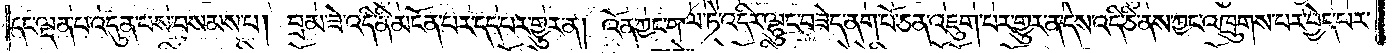དང་ལྡན་པ་འདུན་པས་བསམས་པ། བྲམ་ཟེ་འདི་ནི་མངོན་པར་དད་པར་གྱུར་ན། འོན་ཀྱང་གལ་ཏེ་འདིར་ལྷུང་བཟེད་ནག་པོ་ཅན་འཇུག་པར་གྱུར་ན་དེས་འདི་ཅི་ནས་ཀྱང་འཁྲུགས་པར་བྱེད་པར་
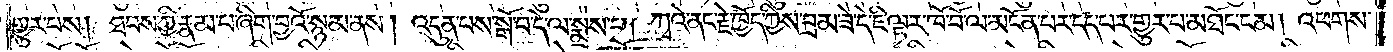གྱུར་པས། ཐབས་ཀྱི་རྣམ་པ་ཞིག་བྱའོ་སྙམ་ནས། འདུན་པས་སྒོ་བ་དེ་ལ་སྨྲས་པ། ཀྭའེ་ནང་རྗེ་ཁྱོད་ཀྱིས་བྲམ་ཟེ་དེ་ཇི་ལྟར་ཁོ་བོ་ལ་མངོན་པར་དད་པར་གྱུར་པ་མཐོང་ངམ། འཕགས་
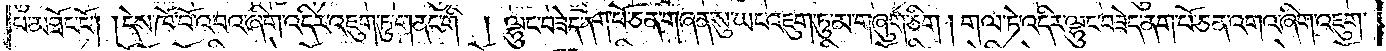པ་མཐོང་ངོ༌། །དེས་ཁོ་བོ་འབའ་ཞིག་འདིར་འཇུག་ཏུ་གནང་གི། ལྷུང་བཟེད་ནག་པོ་ཅན་གཞན་སུ་ཡང་འཇུག་ཏུ་མ་གཞུག་ཅིག །གལ་ཏེ་འདིར་ལྷུང་བཟེད་ནག་པོ་ཅན་འགའ་ཞིག་འཇུག་
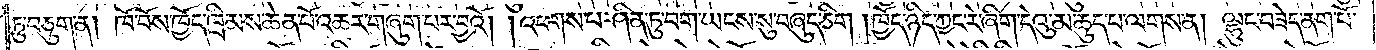ཏུ་བཅུག་ན། ཁོ་བོས་ཁྱོད་ཁྲིམས་ཆེན་པོ་འཆར་གཞུག་པར་བྱའོ། །འཕགས་པ་ཤིན་ཏུ་བག་ཡངས་སུ་བཞུད་ཅིག །ཁྱོད་ཉིད་ཀྱང་རེ་ཞིག་དེའུ་མ་ཆུད་པ་ལགས་ན། ལྷུང་བཟེད་ནག་པོ་
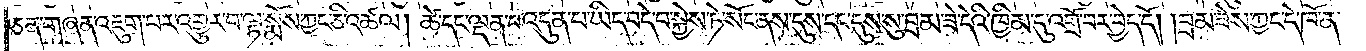ཅན་གཞན་འཇུག་པར་འགྱུར་བ་ལྟ་སྨོས་ཀྱང་ཅི་འཚལ། ཚེ་དང་ལྡན་པ་འདུན་པ་ཡིད་བདེ་བ་སྐྱེས་ཏེ་སོང་ནས་དུས་དང་དུས་སུ་བྲམ་ཟེ་དེའི་ཁྱིམ་དུ་འགྲོ་བར་བྱེད་དོ། །བྲམ་ཟེས་ཀྱང་དེ་ཁོ་ན་
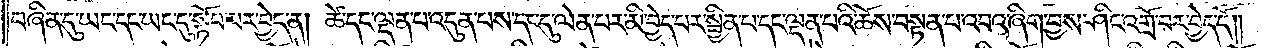བཞིན་དུ་ཡང་དང་ཡང་དུ་སྟོབ་པར་བྱེད་ན། ཚེ་དང་ལྡན་པ་འདུན་པས་དང་དུ་ལེན་པར་མི་བྱེད་པར་སྦྱིན་པ་དང་ལྡན་པའི་ཆོས་བསྟན་པ་འབའ་ཞིག་བྱས་ཤིང་འགྲོ་བར་བྱེད་དོ༎
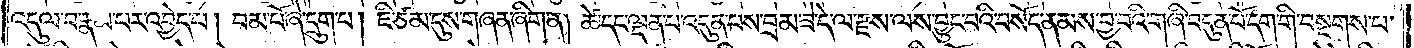འདུལ་བ་རྣམ་པར་འབྱེད་པ། བམ་པོ་ཞེ་དྲུག་པ། ཇི་ཙམ་དུས་གཞན་ཞིག་ན། ཚེ་དང་ལྡན་པ་འདུན་པས་བྲམ་ཟེ་དེ་ལ་རྫས་ལས་བྱུང་བའི་བསོད་ནམས་བྱ་བའི་གཞི་བདུན་པོ་དག་གི་བསྔགས་པ་
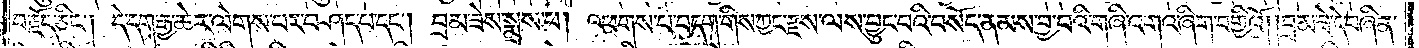བརྗོད་ཅིང༌། དེ་དག་རྒྱ་ཆེར་ལེགས་པར་བཤད་པ་དང༌། བྲམ་ཟེས་སྨྲས་པ། འཕགས་པ་བདག་གིས་ཀྱང་རྫས་ལས་བྱུང་བའི་བསོད་ནམས་བྱ་བའི་གཞི་འགའ་ཞིག་བགྱིའོ། །བྲམ་ཟེ་དེ་བཞིན་
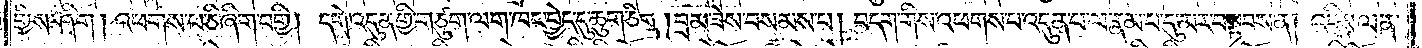གྱིས་ཤིག། འཕགས་པ་ཅི་ཞིག་བགྱི། དགེ་འདུན་གྱི་གཙུག་ལག་ཁང་བྱེད་དུ་ཆུག་ཅིག །བྲམ་ཟེས་བསམས་པ། བདག་གིས་འཕགས་པ་འདུན་པ་ལ་རྣམ་པ་དུ་མར་བསྟབས་ན། འདིས་ལན་
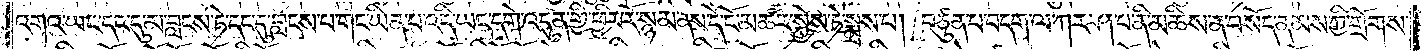འགའ་ཡང་དང་དུ་མ་བླངས་ཏེ་དང་དུ་བླངས་པ་གང་ཡིན་པ་འདི་ཡང་དགེ་འདུན་གྱི་ཕྱིར་རོ་སྙམ་ནས་དེ་ངོ་མཚར་སྐྱེས་ཏེ་སྨྲས་པ། བཙུན་པ་བདག་ལ་ཀར་ཤ་པ་ནི་མཆིས་ན་བསོད་ནམས་ཀྱི་གྲོགས་
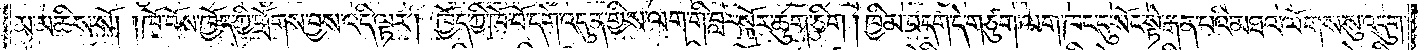མ་མཆིས་སོ། །ཁོ་བོས་ཁྱོད་ཀྱི་གྲོགས་བྱས་འདི་ལྟར། ཁྱོད་ཀྱི་ཁོ་བོ་དགེ་འདུན་གྱིས་ལག་གི་བླར་སྐོར་ཆུག་ཅིག །ཁྱིམ་བདག་དེ་གཙུག་ལག་ཁང་དུ་སོང་སྟེ་རྒན་པའི་མཐའ་ལོགས་སུ་འདུག་
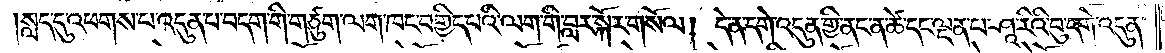སླད་དུ་འཕགས་པ་འདུན་པ་བདག་གི་གཙུག་ལག་ཁང་བགྱིད་པའི་ལག་གི་བླར་སྐོར་གསོལ། དེ་ན་དགེ་འདུན་གྱི་ནང་ན་ཚེ་དང་ལྡན་པ་ཤཱ་རིའི་བུ་དགེ་འདུན་
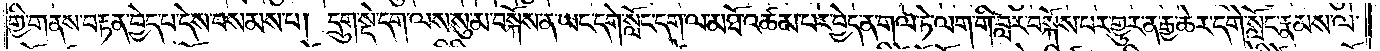གྱི་གནས་བརྟན་བྱེད་པ་དེས་བསམས་པ། དྲུག་སྡེ་དག་ལས་སུ་མ་བསྐོས་ན་ཡང་དགེ་སློང་དག་ལ་མཐོ་འཚམ་པར་བྱེད་ན་གལ་ཏེ་ལག་གི་བླར་བསྐོས་པར་གྱུར་ན་རྒྱ་ཆེར་དགེ་སློང་རྣམས་ལ་
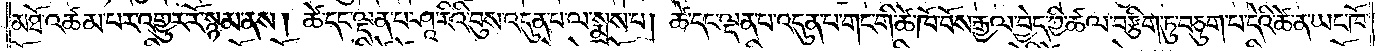མཐོ་འཚམ་པར་འགྱུར་རོ་སྙམ་ནས། ཚེ་དང་ལྡན་པ་ཤཱ་རིའི་བུས་འདུན་པ་ལ་སྨྲས་པ། ཚེ་དང་ལྡན་པ་འདུན་པ་གང་གི་ཚེ་ཁོ་བོས་རྒྱལ་བྱེད་ཀྱི་ཚལ་བརྩིག་ཏུ་བཅུག་པ་དེའི་ཚེ་ན་ཡང་ཁོ་
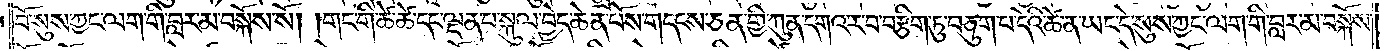བོ་སུས་ཀྱང་ལག་གི་བླར་མ་བསྐོས་སོ། །གང་གི་ཚེ་ཚེ་དང་ལྡན་པ་སྐུལ་བྱེད་ཆེན་པོས་གདངས་ཅན་གྱི་ཀུན་དགའ་ར་བ་བརྩིག་ཏུ་བཅུག་པ་དེའི་ཚེ་ན་ཡང་དེ་སུས་ཀྱང་ལག་གི་བླར་མ་བསྐོས་
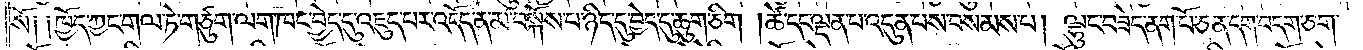སོ༑ ༑ཁྱོད་ཀྱང་གལ་ཏེ་གཙུག་ལག་ཁང་བྱེད་དུ་འཇུད་པར་འདོད་ན་མ་བསྐོས་པ་ཉིད་དུ་བྱེད་དུ་ཆུག་ཅིག །ཚེ་དང་ལྡན་པ་འདུན་པས་བསམས་པ། ལྷུང་བཟེད་ནག་པོ་ཅན་དག་བདག་ཅག་
